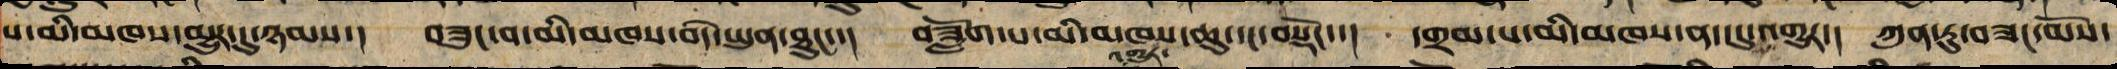པ་མི་མཁས་མྱུར་དུ་ཉམས་། གཟུང་བ་མི་མཁས་བདེ་ཡུན་ཐུང་་། བཟློག་པ་མི་མཁས་ཆུ་དང་བསྡང་་། དགྲམ་པ་མི་མཁས་ནད་དུ་འགྱུར་། ཀུན་ཏུ་བཟང་མོས་
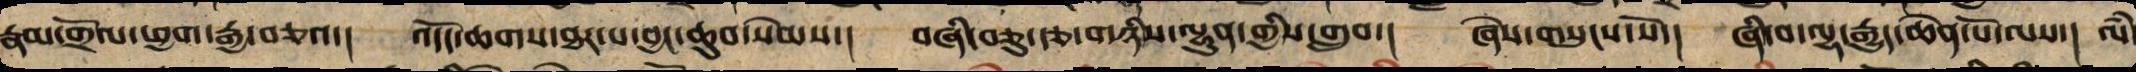རྣམ་གྲོལ་ཕྱག་རྒྱ་བཅའ་། འདོད་ཆགས་ཐར་པ་བྱང་ཆུབ་སེམས་། བཞི་བཅུ་རྩ་གཉིས་ལྷུན་གྱིས་གྲུབ་། ཅེས་གསུངས་སོ་། ཞི་བ་ལྷ་རྒྱུད་ཆེན་པོ་ལས་། ལཾ་
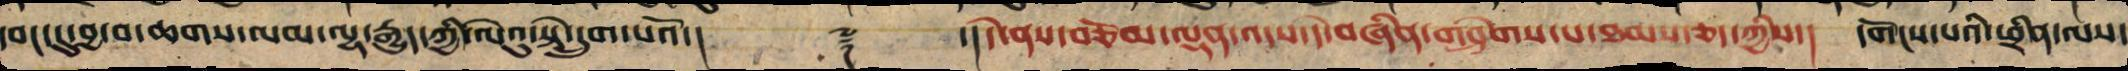དབང་དུ་བྱ་བ་ཆགས་ལམ་ལྷ་རྒྱུད་ཀྱི་ལེའུ་སྟེ་དྲུག་པའོ་།། ༈ ་།།དེ་ནས་བཅོམ་ལྡན་འདས་དེ་བཞིན་གཤེགས་པ་ཐམས་ཅད་ཀྱིས་། དགོངས་པའི་ཕྲིན་ལས་
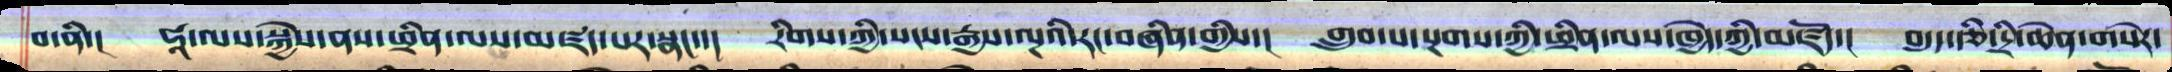བ་ནི་། ཧཱ་ལས་སྐྱེས་ནས་ཕྲིན་ལས་མཛད་པར་སྣང་་། རིགས་ཀྱི་སངས་རྒྱས་ལྔའི་རང་བཞིན་གྱིས་། གྲུབ་པ་སྔགས་ཀྱི་ཕྲིན་ལས་ཁྱེད་ཀྱིས་མཛོད་། བདུད་རྩི་དྲི་ཆེན་གསེར་
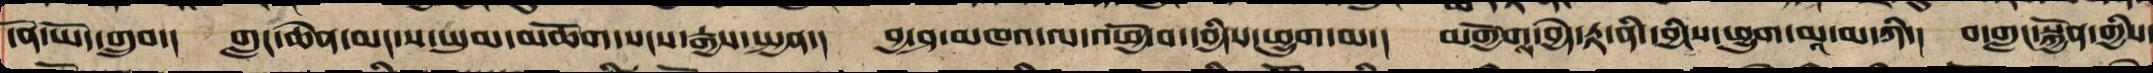དོན་ཡོད་གྲུབ་། གླང་ཆེན་མང་ས་ཡུམ་མཆོག་སངས་རྒྱས་སྤྱན་། བྱ་ཤ་མཁའ་ལ་འཕྱོ་བ་དབྱིངས་ཕྱུག་མ་། མགྱོགས་བྱེད་རྟ་ནི་དབྱིངས་ཕྱུག་མཱ་མ་ཀི་། བ་གླང་སྐྱོན་གྱིས་
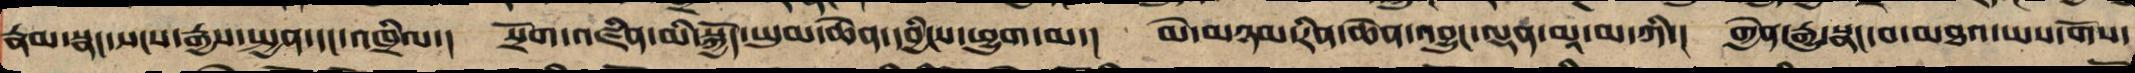རྣམ་སྣང་སངས་རྒྱས་སྤྱན་དང་འཁྲིལ་། སྲོག་འཛིན་མི་བསྐྱོད་ཡུམ་ཆེན་དབྱིངས་ཕྱུག་མ་། མི་མཉམ་རིན་ཆེན་འབྱུང་ལྡན་མཱ་མ་ཀི་། གྱེན་རྒྱུ་སྣང་བ་མཐའ་ཡས་གོས་
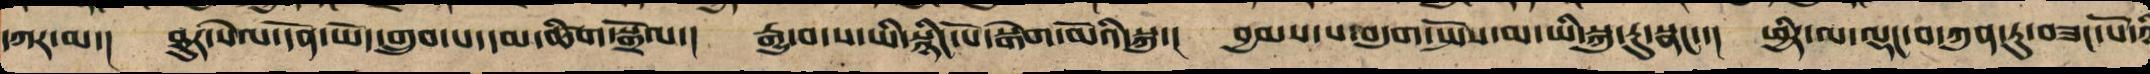དཀར་མ་། ཐུར་སེལ་དོན་ཡོད་གྲུབ་པ་དམ་ཚིག་སྒྲོལ་། རྒྱུ་བ་ས་ཡི་སྙིང་པོ་སྒེག་མོའི་སྐུ་། བྱམས་པ་བདུག་སྤོས་མ་ཡི་སྐུ་རུ་སྣང་་། ཕྱིར་ལ་ལྡང་བ་ཀུན་ཏུ་བཟང་པོ་ཉིད
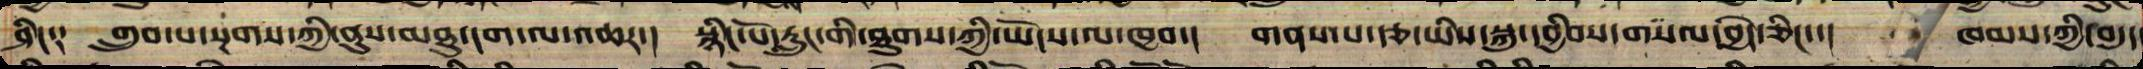ཤིང༑ གྲུབ་པ་སྔགས་ཀྱི་ནུས་མཐུ་ངག་ལ་འཆར་། སྙིང་པོ་རླུང་གི་ཐུགས་ཀྱིས་ཡོངས་ལ་ཁྱབ་། གནས་པ་རྩ་ཡིས་སྐུ་དབྱིབས་གསལ་བྱེད་ཅིང་་། ཁམས་ཀྱི་བདུད་
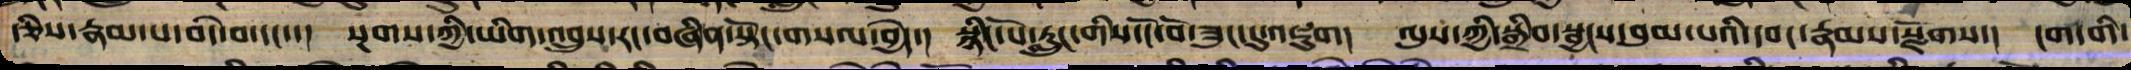རྩིས་རྣམ་པ་བདེ་བ་དང་་། སྔགས་ཀྱི་ཡིག་འབྲུས་རང་བཞིན་སྟོང་གསལ་བྱེད་། སྙིང་པོ་རླུང་གིས་ངོ་བོ་ཟུང་དུ་འཇུག། ལུས་ཀྱི་སྒྲིབ་སྦྱངས་བུམ་པའི་དབང་རྣམས་སྫོགས་། ངག་གི་
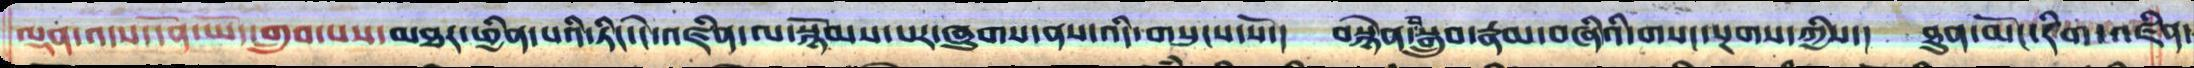ལྡན་འདས་དོན་ཡོད་གྲུབ་པས་མཐར་ཕྱིན་པའི་ཏིང་ངེ་འཛིན་ལ་སྙོམས་པར་ཞུགས་ནས་འདི་གསུངས་སོ་། བསྙེན་བསྒྲུབ་རྣམ་བཞིའི་གསང་སྔགས་ཀྱིས་། ཐུན་མོང་རིག་འཛིན་
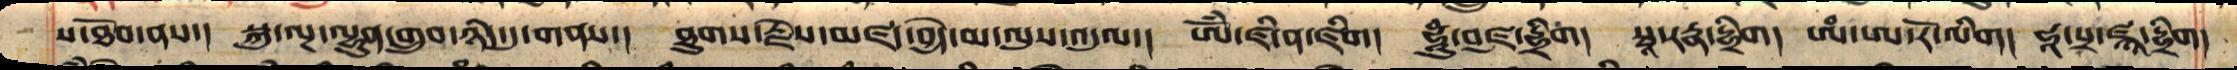ས་ཐོབ་ནས་། སྐུ་ལྔ་ལྷུན་གྲུབ་ཉིད་དུ་གནས་། ཐུགས་རྗེས་མཛད་བྱེད་མ་ལུས་འདུལ་། ཨོཾ་ཛི་ན་ཛིཀ། ཧཱུཾ་བཛྲ་དྷྲྀག། སྭ་རཏྣ་དྷྲྀག། ཨཾ་ཨ་རོ་ལིག། ཧཱ་པྲཛྙཱ་དྷྲྀག།
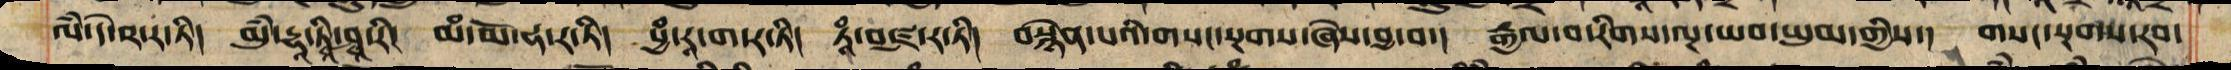ལཾ་དྭེ་ཥ་ར་ཏི། མུཾ་དྷཱ་ཏྭཱི་ཤྭཱ་རི། མཾ་མོ་ཧ་ར་ཏི། པྱཾ་རཱ་ག་ར་ཏི། ཏྭཾ་བཛྲ་ར་ཏི། བསྙེན་པའི་གསང་སྔགས་ཞེས་བྱ་བ་། རྒྱལ་བ་རིགས་ལྔ་ཡབ་ཡུམ་གྱི་། གསང་སྔགས་རབ་
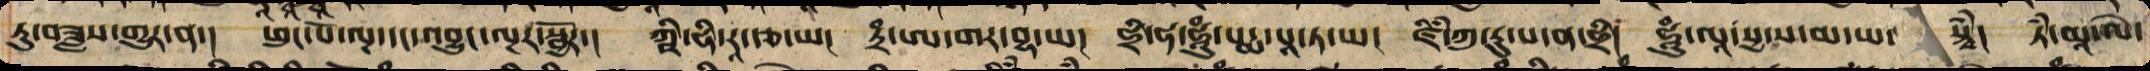ཏུ་བཟླས་གྱུར་ན་། ཕུང་པོ་ལྔ་དང་འབྱུང་ལྔར་སྦྱོར་། ཀྵི་ཧི་རཱ་རྩ་ཡ། ཏྲཾ་ཨ་གར་བྷ་ཡ། ཧྲི་ཧ་ཧཱུཾ་པདྨ་པཱ་ད་ཡ། ཛིཾ་ཀུ་རུ་པཱ་ན་ཧྲི། ཧཱུཾ་ལཱ་སྱ་ས་མ་ཡ་སྟྭཾ། ཏཾ་མཱ་ལེ་
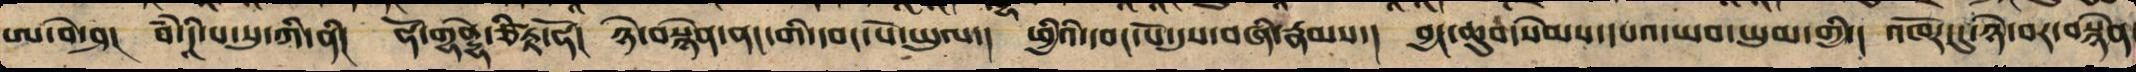ཨ་བེ་ཤ། བཾ་དཱི་པ་སུ་གི་ནི། ཧོ་གནྡྷེ་ཙིཏྟ་ཧོ། ཉེ་བསྙེན་ནང་གི་དབང་པོ་ཡུལ་། ཕྱི་ཡི་དབང་པོ་དུས་བཞི་རྣམས་། བྱང་ཆུབ་སེམས་དཔའ་ཡབ་ཡུམ་གྱི་། འཁོར་དུ་ཉེ་བར་བསྙེན
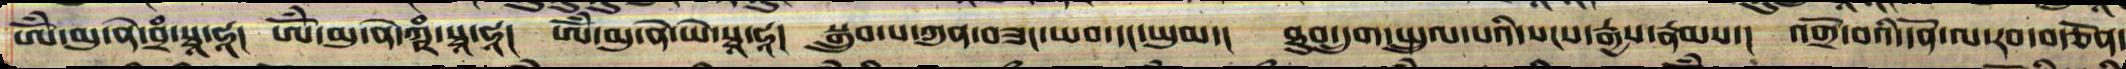ཨོཾ་མུ་ནེ་བྲཾ་སྭཱ་ཧཱ། ཨོཾ་མུ་ནེ་ཀྵཾ་སྭཱ་ཧཱ། ཨོཾ་མུ་ནེ་ཡེ་སྭཱ་ཧཱ། བསྒྲུབ་པ་ཀུན་བཟང་ཡབ་དང་ཡུམ་། ཐུབ་དྲུག་སྤྲུལ་པའི་སངས་རྒྱས་རྣམས་། འགྲོ་བའི་དོན་ལ་རབ་བརྩོན་
